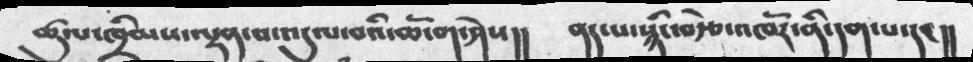ཚུལ་ཁྲིམས་ལྡན་པ་འདུལ་བའི་ཆོ་ག་ཤེས།།    ནད་པ་སྙིང་བརྩེ་འཁོར་ནི་དག་པ་དང །།
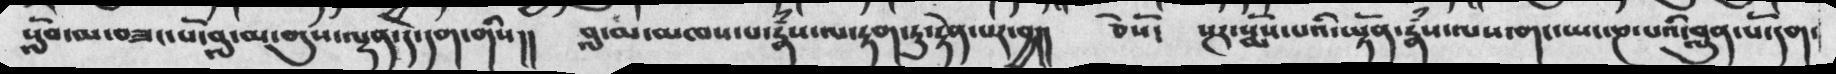སློབ་བཟད་པོ་བླ་མ་བདུས་ལྡན་དེ་དག་གིས།།  བླ་ལ་མཁས་པ་རྣཾས་ལ་རྟག་ཏུ་རྟེན་པར་བྱ།།  ཅེསོ༴  སྔར་སྨོས་པའི་སྟོན་རྣཾས་ལས་གང་ཡང་ཎ་པའི་བླུན་པོ་དག་
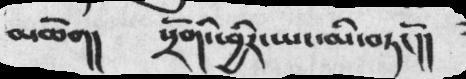མཆེག།   སྲོགི་ཕྱིར་ཡང་མི་བཏངོ།།
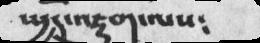སྤྱོད་འཇུག་ལས༴
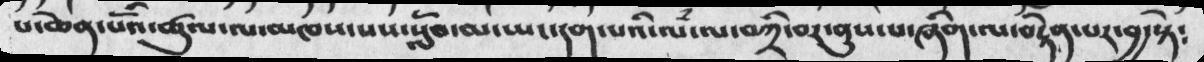པ་ཆེན་པོའི་ཚུལ་ལས་མཁས་པས་སློབ་མ་ཡང་དག་པའི་ལཾ་ལ་བཀྲི་བར་ནུས་པ་ཞིག་ལ་བསྟེན་པར་བྱ་སྟེ༴
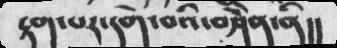རྟག་པར་དགེ་བའི་བཤེཻན་ནི།།
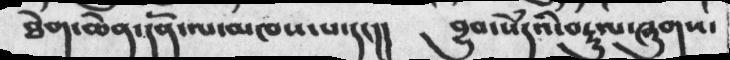ཐེག་ཆེན་དོན་མཁས་པ་དང།།   བྱུང་སེཾདའི་བསྡུལ་ཞུགས་
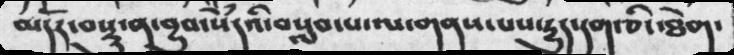མདོར་བསྡུ་ན་བྱུབ་སེཾདཔའི་བསླབ་པ་ལ་གནས་པས་རྒྱུད་དག་ཅིང་ཐེག་
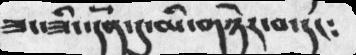ཟང་ཟིང་དོན་དུ་མི་གཉེར་བ་དང༴
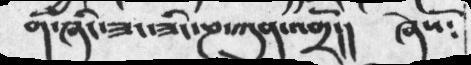ག་ཞིང་ཟ་ཟིང་ཎ་ཀུན་འགྲོ།།         ཞེསོ༴
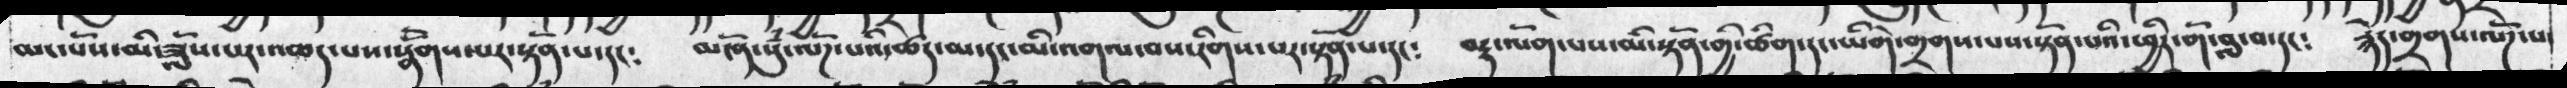མང་པོས་མི་ཟློས་པར་འཆད་པས་སྣོགས་པར་སྟོན་པ་དང༴   མདོན་སུཾ་ལོཌ་པའི་ཚད་མ་དང་མི་འགལ་བས་རིགས་པར་སྟོན་པ་དང༴   བརྡ་ལོག་པས་མི་སྟོན་གྱི་ཚིག་དང་ཡིགེ་གྲགས་པས་སྟོན་པའི་ཕྱིར་གོ་སླ་བ་དང༴   རྙེད་གྲགས་ལོཌ་པ
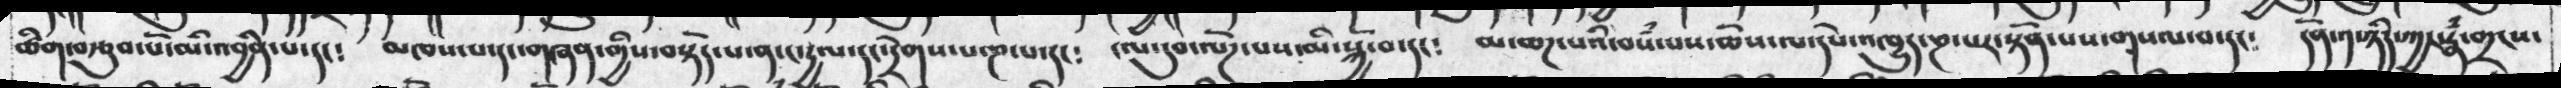ཚིག་བརྩུབ་པོ་མི་འབྱིན་པ་དང༴    མཁས་པ་དང་གཞན་གྱིས་བསྟོད་པ་ན་ང་རྒྱལ་དང་དྲགས་པ་ཎ་པ་དང༴  ངལ་དུབ་ལོཌ་པས་མི་སྐྱོ་བ་དང༴  མ་ཆཌ་པའི་བསྃ་པས་ཆོས་ལ་དེས་འཁྱུད་ཎ་པར་སྟོན་པས་གསལ་བ་དང༴   དོན་༡་ཉིད་ཀྱང་རྣྃ་གྲངས
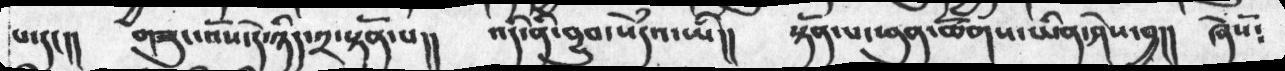པ་དང།།   གཟུང་འོས་དེ་ཉིད་༢་སྟོན་པ།།   འདི་ནི་བྱུབ་སེཾདའ་ཡི།།    སྟོན་པ་ཕུན་ཚོགས་ཡིན་ཤེས་བྱ།།     ཞེསོ༴
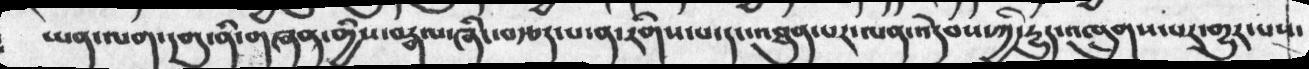ཡན་ལག་དགུ་ནི་གཞན་གྱིས་བརྣལ་ཞིང་བརྩད་པ་ན་རིགས་པ་དང་འཐུན་པར་ལན་འདེབས་ཀྱི་རྒྱུད་འཁྲུུགས་པར་གྱུར་པས་
